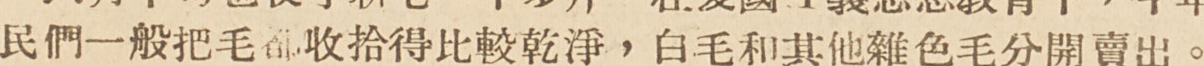民們一般把毛都收拾得比較乾淨，白毛和其他雜色毛分開賣出。
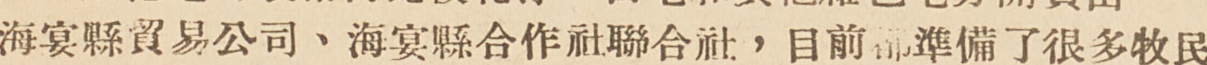海晏縣貿易公司、海晏縣合作社聯合社，目前都準備了很多牧民
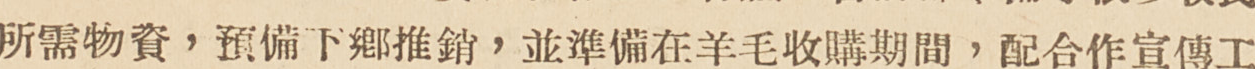所需物資，預備下鄉推銷，並準備在羊毛收購期間，配合作宣傳工
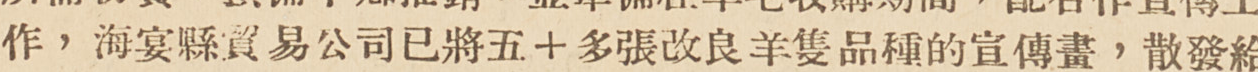作，海晏縣貿易公司已將五十多張改良羊隻品種的宣傳畫，散發給
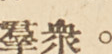羣衆。
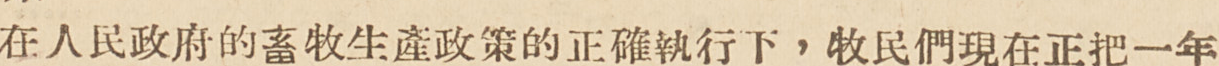在人民政府的畜牧生產政策的正確執行下，牧民們現在正把一年
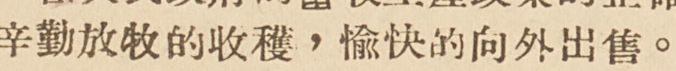辛勤放牧的收穫，愉快的向外出售。
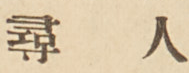尋 人
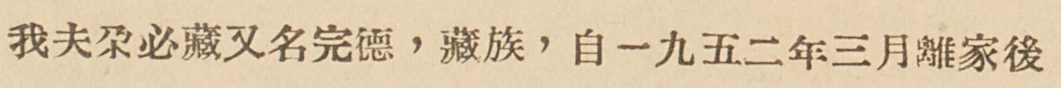我夫尕必藏又名完德，藏族，自一九五二年三月離家後
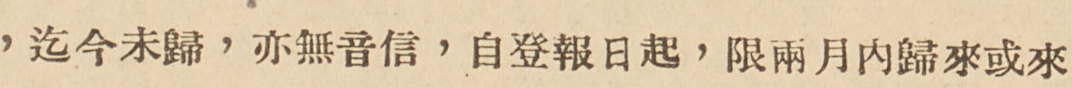，迄今未歸，亦無音信，自登報日起，限兩月內歸來或來
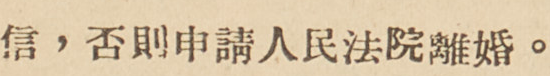信，否則申請人民法院離婚。
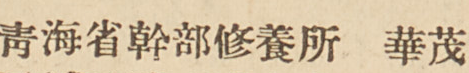青海省幹部休養所 華茂
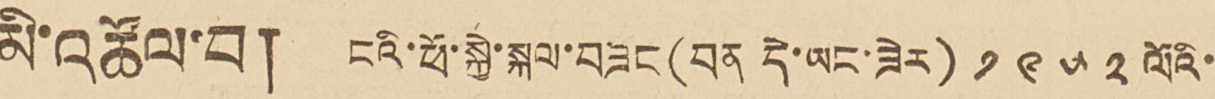མི་འཚོལ་བ། ངའི་ཕོ་སྐྱེ་སྐལ་བཟང (བན དེ་ཡང་ཟེར) ༡ ༩ ༥ ༢ ལོའི་
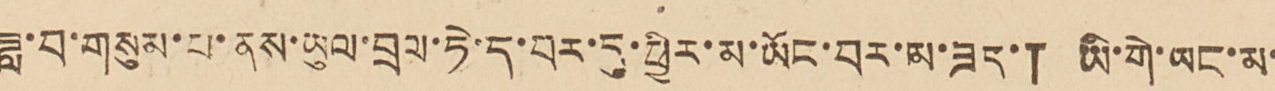ཟླ་བ་གསུམ་པ་ནས་ཡུལ་བྲལ་ཏེ་ད་བར་དུ་ཕྱིར་མ་ཡོང་བར་མ་ཟད་། ཡི་གེ་ཡང་མ་
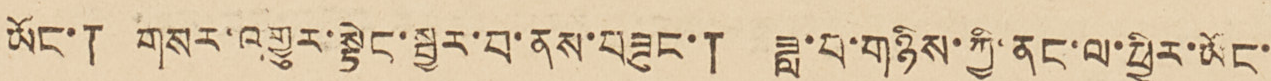ཡོང་། གསར་འགྱུར་སྟེང་སྦྱར་བ་ནས་བཟུང་། ཟླ་བ་གཉིས་ཀྱི་ནང་ལ་ཕྱིར་ཡོང་
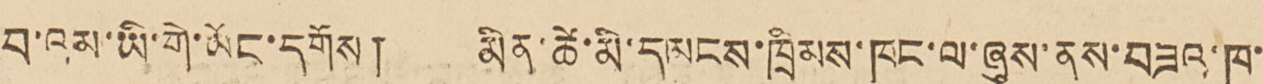བ་འམ་ཡི་གེ་ཡོང་དགོས། མིན་ཚེ་མི་དམངས་ཁྲིམས་ཁང་ལ་ཞུས་ནས་བཟའ་ཁ་
